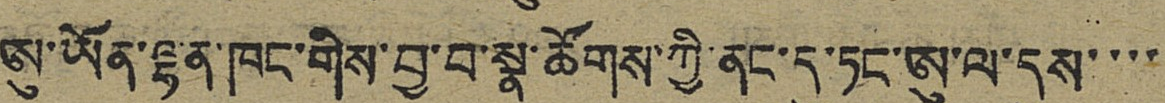ཨུ་ཡོན་ལྷན་ཁང་གིས་བྱ་བ་སྣ་ཚོགས་ཀྱི་ནང་དུ་ཏང་ཨུ་ལ་དུས་་་་
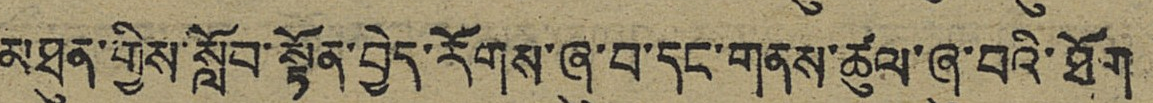མཐུན་གྱིས་སློབ་སྟོན་བྱེད་རོགས་ཞུ་བ་དང་གནས་ཚུལ་ཞུ་བའི་ཐོག
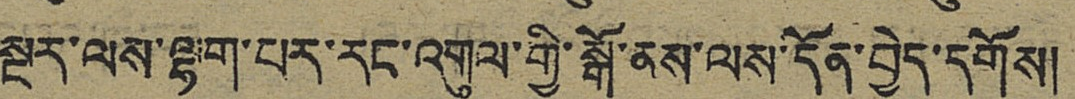སྔར་ལས་ལྷག་པར་རང་འགུལ་གྱི་སྒོ་ནས་ལས་དོན་བྱེད་དགོས།
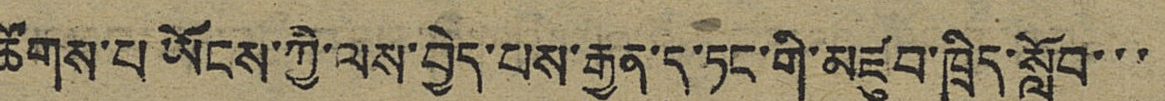ཚོགས་པ་ཡོངས་ཀྱི་ལས་བྱེད་པས་རྒྱུན་དུ་ཏང་གི་མཛུབ་ཁྲིད་སློབ་་་
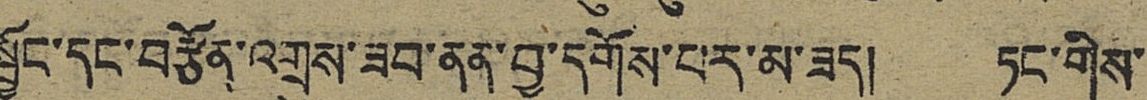སྦྱོང་དང་བརྩོན་འགྲུས་ཟབ་ནན་བྱ་དགོས་པར་མ་ཟད། ཏང་གིས་
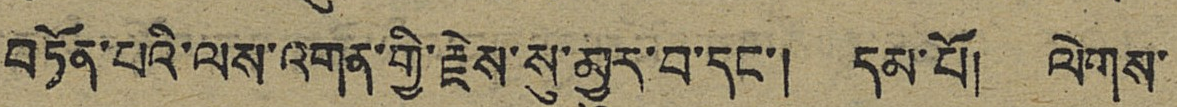བཏོན་པའི་ལས་འགན་གྱི་རྗེས་སུ་མྱུར་བ་དང་། དམ་པོ། ལེགས་
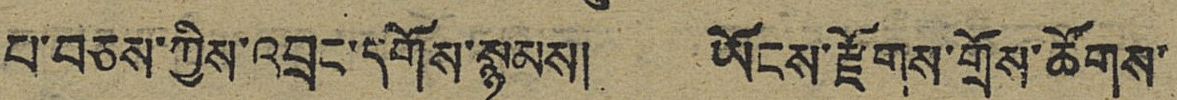པ་བཅས་ཀྱིས་འབྲང་དགོས་སྙམས། ཡོངས་རྫོགས་གྲོས་ཚོགས་
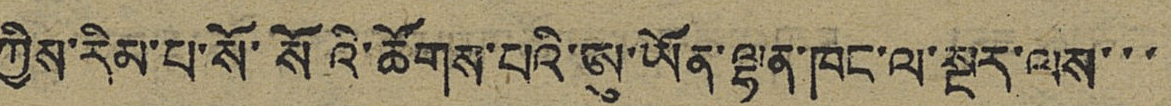ཀྱིས་རིམ་པ་སོ་སོའི་ཚོགས་པའི་ཨུ་ཡོན་ལྷན་ཁང་ལ་སྔར་ལས་་་
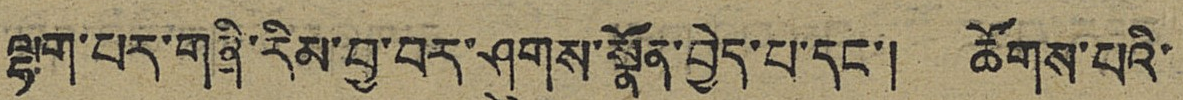ལྷག་པར་གཞི་རིམ་བྱ་བར་ཤུགས་སྣོན་བྱེད་པ་དང་། ཚོགས་པའི་
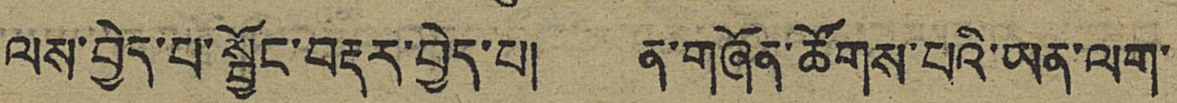ལས་བྱེད་པ་སྦྱོང་བརྡར་བྱེད་པ། ན་གཞོན་ཚོགས་པའི་ཡན་ལག་
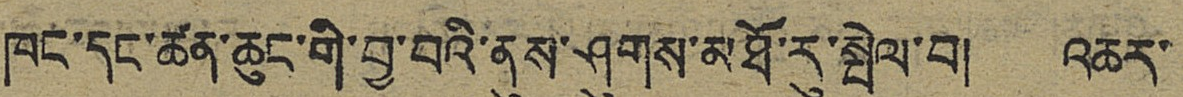ཁང་དང་ཚན་ཆུང་གི་བྱ་བའི་ནུས་ཤུགས་མཐོ་རུ་སྤེལ་བ། འཆར་
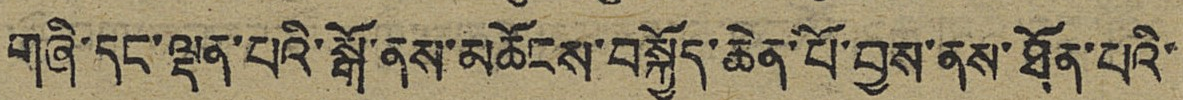གཞི་དང་ལྡན་པའི་སྒོ་ནས་མཆོངས་བསྐྱོད་ཆེན་པོ་བྱས་ནས་ཐོན་པའི་
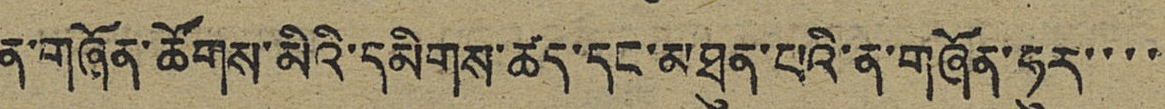ན་གཞོན་ཚོགས་མིའི་དམིགས་ཚད་དང་མཐུན་པའི་ན་གཞོན་ཧུར་་་་
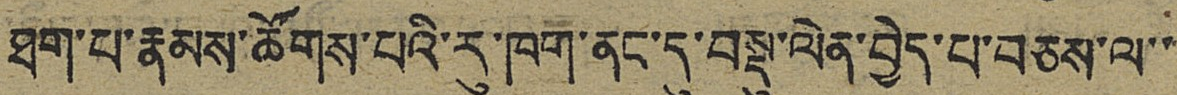ཐག་པ་རྣམས་ཚོགས་པའི་རུ་ཁག་ནང་དུ་བསྡུ་ལེན་བྱེད་པ་བཅས་ལ་་
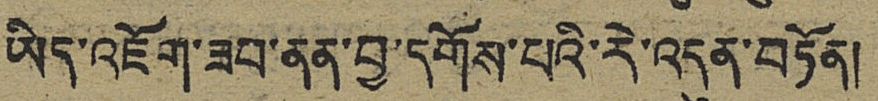ཡིད་འཇོག་ཟབ་ནན་བྱ་དགོས་པའི་རེ་འདུན་བཏོན།
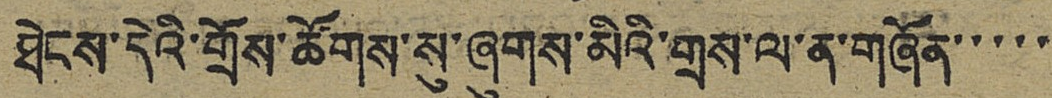ཐེངས་དེའི་གྲོས་ཚོགས་སུ་ཞུགས་མིའི་གྲས་ལ་ན་གཞོན་་་་་
